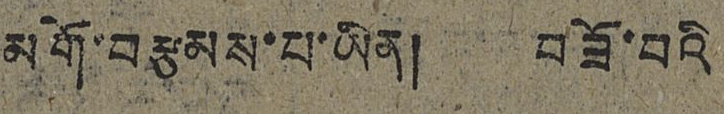མགོ་བརྩམས་པ་ཡིན། བཟོ་བའི་
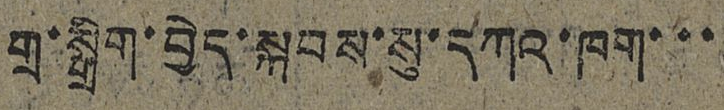གྲ་སྒྲིག་བྱེད་སྐབས་སུ་དཀའ་ཁག་་་
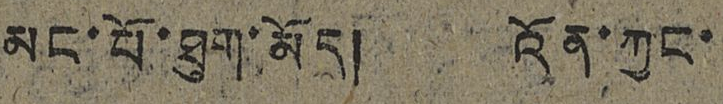མང་པོ་ཐུག་མོད། འོན་ཀྱང་
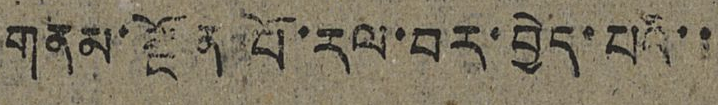གནམ་སྔོན་པོ་རལ་བར་བྱེད་པའི་་
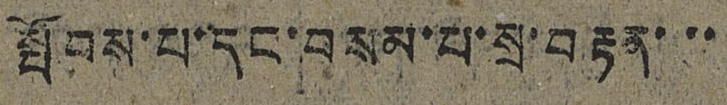སྤོབས་པ་དང་བསམ་པ་སྲ་བརྟན་་་
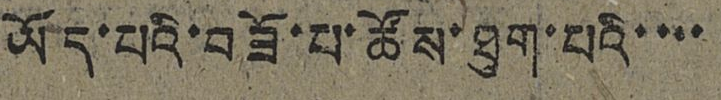ཡོད་པའི་བཟོ་པ་ཚོས་ཐུག་པའི་་་་
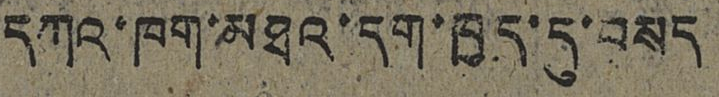དཀའ་ཁག་མཐའ་དག་ཁྱད་དུ་བསད
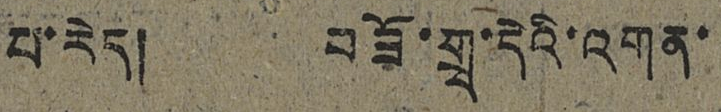པ་རེད། བཟོ་གྲྭ་དེའི་འགན་
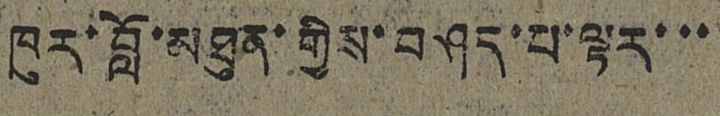ཁུར་བློ་མཐུན་གྱིས་བཤད་པ་ལྟར་་་
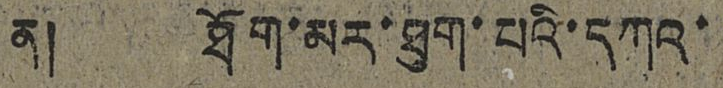ན། ཐོག་མར་ཐུག་པའི་དཀའ་
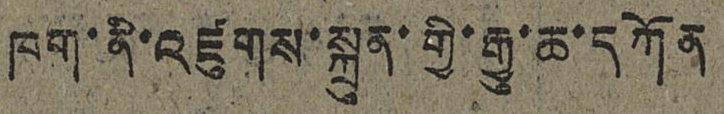ཁག་ནི་འཛུགས་སྐྲུན་གྱི་རྒྱུ་ཆ་དཀོན
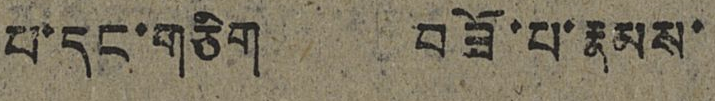པ་དང་གཅིག བཟོ་པ་རྣམས་
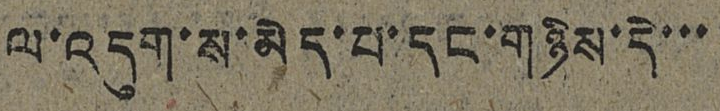ལ་འདུག་ས་མེད་པ་དང་གཉིས་དེ་་་
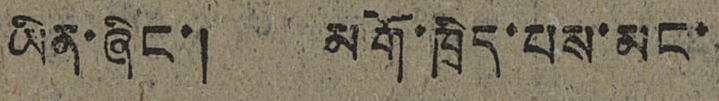ཡིན་ཞིང་། མགོ་ཁྲིད་པས་མང་
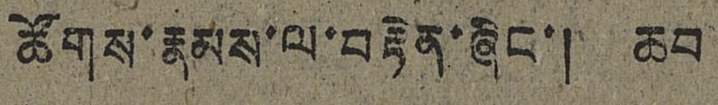ཚོགས་རྣམས་ལ་བརྟེན་ཞིང་། ཆབ
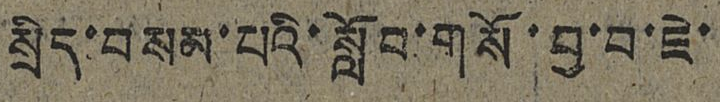སྲིད་བསམ་པའི་སློབ་གསོ་བྱ་བ་ཇེ་
